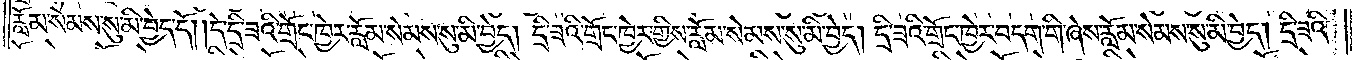རློམ་སེམས་སུ་མི་བྱེད་དོ། །དེ་དྲི་ཟའི་གྲོང་ཁྱེར་རློམ་སེམས་སུ་མི་བྱེད། དྲི་ཟའི་གྲོང་ཁྱེར་གྱིས་རློམ་སེམས་སུ་མི་བྱེད། དྲི་ཟའི་གྲོང་ཁྱེར་བདག་གི་ཞེས་རློམ་སེམས་སུ་མི་བྱེད། དྲི་ཟའི་
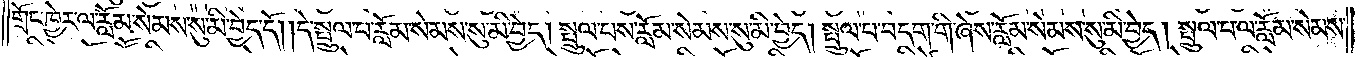གྲོང་ཁྱེར་ལ་རློམ་སེམས་སུ་མི་བྱེད་དོ། །དེ་སྤྲུལ་པ་རློམ་སེམས་སུ་མི་བྱེད། སྤྲུལ་པས་རློམ་སེམས་སུ་མི་བྱེད། སྤྲུལ་པ་བདག་གི་ཞེས་རློམ་སེམས་སུ་མི་བྱེད། སྤྲུལ་པ་ལ་རློམ་སེམས་
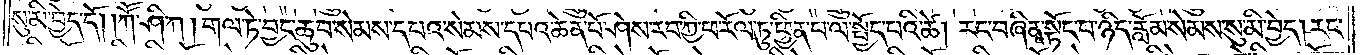སུ་མི་བྱེད་དོ། །ཀཽ་ཤི་ཀ། གལ་ཏེ་བྱང་ཆུབ་སེམས་དཔའ་སེམས་དཔའ་ཆེན་པོ་ཤེས་རབ་ཀྱི་ཕ་རོལ་ཏུ་ཕྱིན་པ་ལ་སྤྱོད་པའི་ཚེ། རང་བཞིན་སྟོང་པ་ཉིད་རློམ་སེམས་སུ་མི་བྱེད། རང་
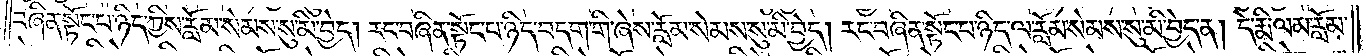བཞིན་སྟོང་པ་ཉིད་ཀྱིས་རློམ་སེམས་སུ་མི་བྱེད། རང་བཞིན་སྟོང་པ་ཉིད་བདག་གི་ཞེས་རློམ་སེམས་སུ་མི་བྱེད། རང་བཞིན་སྟོང་པ་ཉིད་ལ་རློམ་སེམས་སུ་མི་བྱེད་ན། དེ་རྨི་ལམ་རློམ་
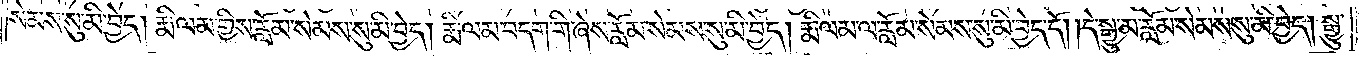སེམས་སུ་མི་བྱེད། རྨི་ལམ་གྱིས་རློམ་སེམས་སུ་མི་བྱེད། རྨི་ལམ་བདག་གི་ཞེས་རློམ་སེམས་སུ་མི་བྱེད། རྨི་ལམ་ལ་རློམ་སེམས་སུ་མི་བྱེད་དོ། །དེ་སྒྱུ་མ་རློམ་སེམས་སུ་མི་བྱེད། སྒྱུ་
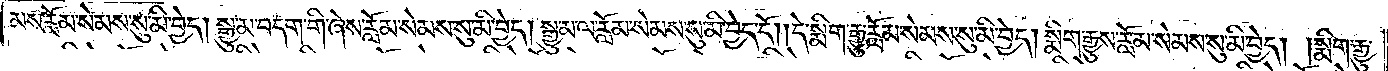མས་རློམ་སེམས་སུ་མི་བྱེད། སྒྱུ་མ་བདག་གི་ཞེས་རློམ་སེམས་སུ་མི་བྱེད། སྒྱུ་མ་ལ་རློམ་སེམས་སུ་མི་བྱེད་དོ། །དེ་སྨིག་རྒྱུ་རློམ་སེམས་སུ་མི་བྱེད། སྨིག་རྒྱུས་རློམ་སེམས་སུ་མི་བྱེད། སྨིག་རྒྱུ་
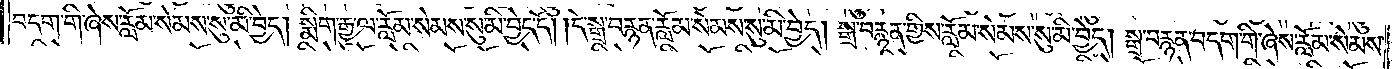བདག་གི་ཞེས་རློམ་སེམས་སུ་མི་བྱེད། སྨིག་རྒྱུ་ལ་རློམ་སེམས་སུ་མི་བྱེད་དོ། །དེ་སྒྲ་བརྙན་རློམ་སེམས་སུ་མི་བྱེད། སྒྲ་བརྙན་གྱིས་རློམ་སེམས་སུ་མི་བྱེད། སྒྲ་བརྙན་བདག་གི་ཞེས་རློམ་སེམས་
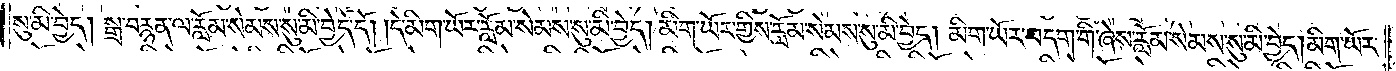སུ་མི་བྱེད། སྒྲ་བརྙན་ལ་རློམ་སེམས་སུ་མི་བྱེད་དོ། །དེ་མིག་ཡོར་རློམ་སེམས་སུ་མི་བྱེད། མིག་ཡོར་གྱིས་རློམ་སེམས་སུ་མི་བྱེད། མིག་ཡོར་བདག་གི་ཞེས་རློམ་སེམས་སུ་མི་བྱེད། མིག་ཡོར་
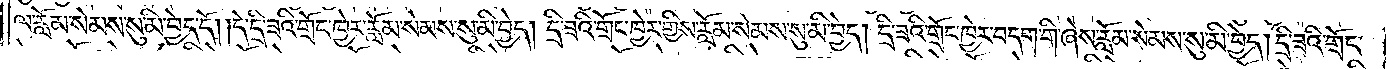ལ་རློམ་སེམས་སུ་མི་བྱེད་དོ། །དེ་དྲི་ཟའི་གྲོང་ཁྱེར་རློམ་སེམས་སུ་མི་བྱེད། དྲི་ཟའི་གྲོང་ཁྱེར་གྱིས་རློམ་སེམས་སུ་མི་བྱེད། དྲི་ཟའི་གྲོང་ཁྱེར་བདག་གི་ཞེས་རློམ་སེམས་སུ་མི་བྱེད། དྲི་ཟའི་གྲོང་
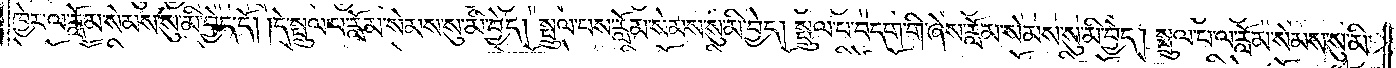ཁྱེར་ལ་རློམ་སེམས་སུ་མི་བྱེད་དོ། །དེ་སྤྲུལ་པ་རློམ་སེམས་སུ་མི་བྱེད། སྤྲུལ་པས་རློམ་སེམས་སུ་མི་བྱེད། སྤྲུལ་པ་བདག་གི་ཞེས་རློམ་སེམས་སུ་མི་བྱེད། སྤྲུལ་པ་ལ་རློམ་སེམས་སུ་མི་
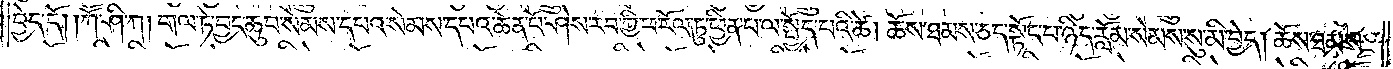བྱེད་དོ། །ཀཽ་ཤི་ཀ། གལ་ཏེ་བྱང་ཆུབ་སེམས་དཔའ་སེམས་དཔའ་ཆེན་པོ་ཤེས་རབ་ཀྱི་ཕ་རོལ་ཏུ་ཕྱིན་པ་ལ་སྤྱོད་པའི་ཚེ། ཆོས་ཐམས་ཅད་སྟོང་པ་ཉིད་རློམ་སེམས་སུ་མི་བྱེད། ཆོས་ཐམས་
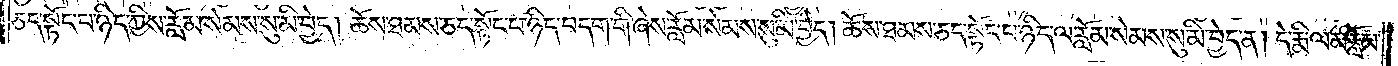ཅད་སྟོང་པ་ཉིད་ཀྱིས་རློམ་སེམས་སུ་མི་བྱེད། ཆོས་ཐམས་ཅད་སྟོང་པ་ཉིད་བདག་གི་ཞེས་རློམ་སེམས་སུ་མི་བྱེད། ཆོས་ཐམས་ཅད་སྟོང་པ་ཉིད་ལ་རློམ་སེམས་སུ་མི་བྱེད་ན། དེ་རྨི་ལམ་རློམ་
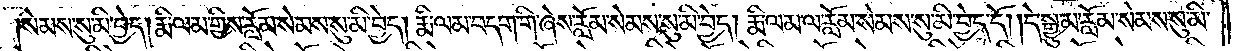སེམས་སུ་མི་བྱེད། རྨི་ལམ་གྱིས་རློམ་སེམས་སུ་མི་བྱེད། རྨི་ལམ་བདག་གི་ཞེས་རློམ་སེམས་སུ་མི་བྱེད། རྨི་ལམ་ལ་རློམ་སེམས་སུ་མི་བྱེད་དོ། །དེ་སྒྱུ་མ་རློམ་སེམས་སུ་མི་
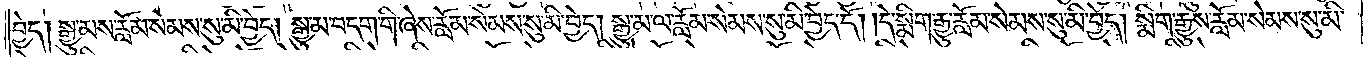བྱེད། སྒྱུ་མས་རློམ་སེམས་སུ་མི་བྱེད། སྒྱུ་མ་བདག་གི་ཞེས་རློམ་སེམས་སུ་མི་བྱེད། སྒྱུ་མ་ལ་རློམ་སེམས་སུ་མི་བྱེད་དོ། །དེ་སྨིག་རྒྱུ་རློམ་སེམས་སུ་མི་བྱེད། སྨིག་རྒྱུས་རློམ་སེམས་སུ་མི་
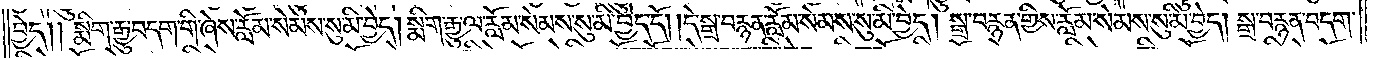བྱེད། །སྨིག་རྒྱུ་བདག་གི་ཞེས་རློམ་སེམས་སུ་མི་བྱེད། སྨིག་རྒྱུ་ལ་རློམ་སེམས་སུ་མི་བྱེད་དོ། །དེ་སྒྲ་བརྙན་རློམ་སེམས་སུ་མི་བྱེད། སྒྲ་བརྙན་གྱིས་རློམ་སེམས་སུ་མི་བྱེད། སྒྲ་བརྙན་བདག་
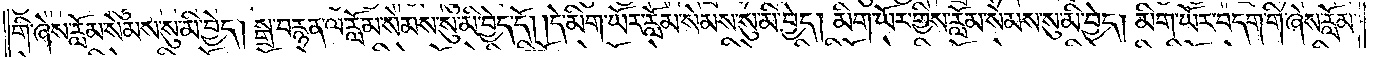གི་ཞེས་རློམ་སེམས་སུ་མི་བྱེད། སྒྲ་བརྙན་ལ་རློམ་སེམས་སུ་མི་བྱེད་དོ། །དེ་མིག་ཡོར་རློམ་སེམས་སུ་མི་བྱེད། མིག་ཡོར་གྱིས་རློམ་སེམས་སུ་མི་བྱེད། མིག་ཡོར་བདག་གི་ཞེས་རློམ་
